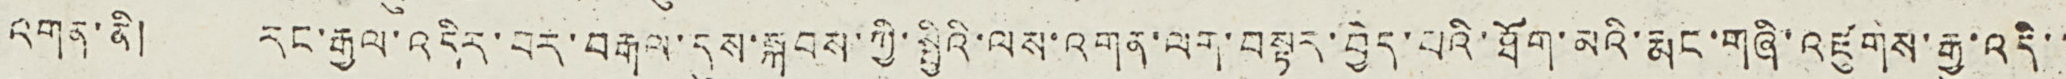འགན་ནི། རང་རྒྱལ་འདིར་བར་བརྒལ་དུས་སྐབས་ཀྱི་སྤྱིའི་ལས་འགན་ལག་བསྟར་བྱེད་པའི་ཐོག་མའི་རྨང་གཞི་འཛུགས་རྒྱུ་འདི་་
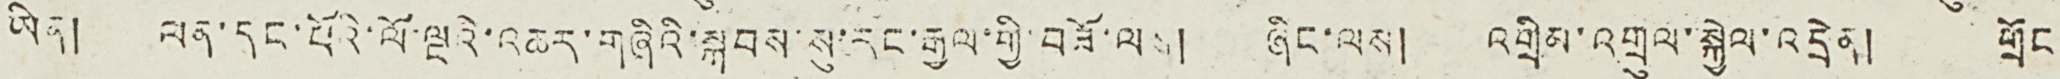ཡིན། ལན་དང་པོའི་ལོ་ལྔའི་འཆར་གཞིའི་སྐབས་སུ་རང་རྒྱལ་གྱི་བཟོ་ལས། ཞིང་ལས། འགྲིམ་འགྲུལ་སྐྱེལ་འདྲེན། གྲོང་
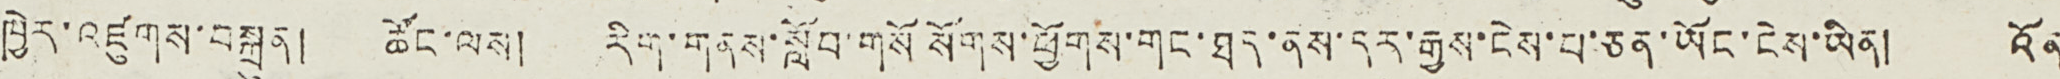ཁྱེར་འཛུགས་བསྐྲུན། ཚོང་ལས། རིག་གནས་སློབ་གསོ སོགས་ཕྱོགས་གང་ཐད་ནས་དར་རྒྱས་ངེས་པ་ཅན་ཡོང་ངེས་ཡིན། འོན
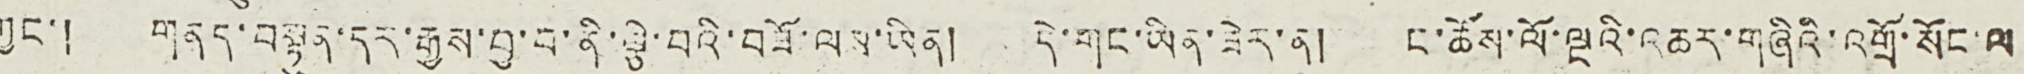ཀྱང་། གནད་བསྟུན་དར་རྒྱས་བྱ་བ་ནི་ལྕེ་བའི་བཟོ་ལས་ཡིན། དེ་གང་ཡིན་ཟེར་ན། ང་ཚོས་ལོ་ལྔའི་འཆར་གཞིའི་འགྲོ་སོང་ལ་
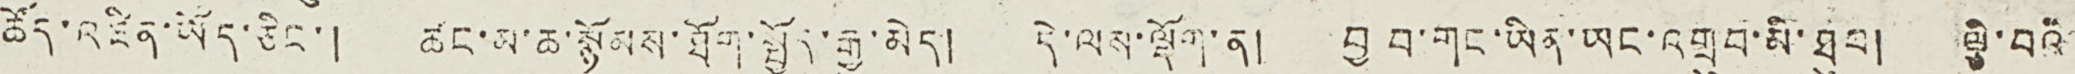ཚོད་འཛིན་ཡོད་ཅིང་། ཚང་མ་ཆ་སྙོམས་ཐོག་སྤྱོད་རྒྱུ་མེད། དེ་ལས་སྡོག་ན། བྱ་བ་གང་ཡིན་ཡང་འགྲུབ་མི་ཐུབ། ལྕི་བའི
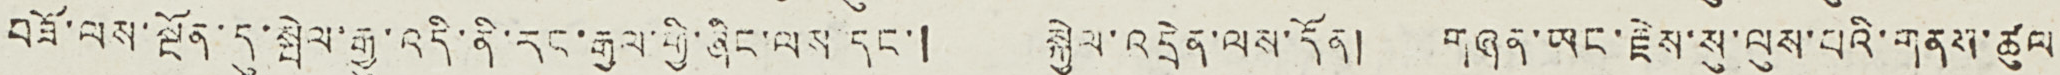བཟོ་ལས་སྔོན་དུ་སྤེལ་རྒྱུ་འདི་ནི་རང་རྒྱལ་གྱི་ཞིང་ལས་དང་། སྐྱེལ་འདྲེན་ལས་དོན། གཞན་ཡང་རྗེས་སུ་ལུས་པའི་གནས་ཚུལ་
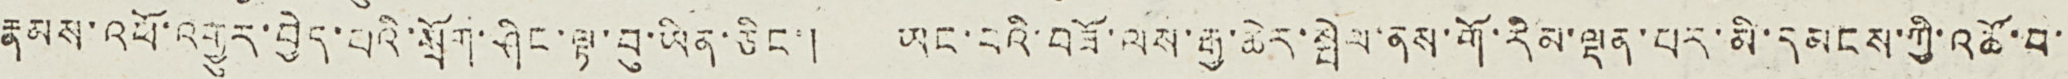རྣམས་འཕོ་འགྱུར་བྱེད་པའི་སྲོག་ཤིང་ལྟ་བུ་ཡིན་ཅིང་། ཡང་བའི་བཟོ་ལས་རྒྱ་ཆེར་སྤེལ་ནས་གོ་རིམ་ལྡན་པར་མི་དམངས་ཀྱི་འཚོ་བ་
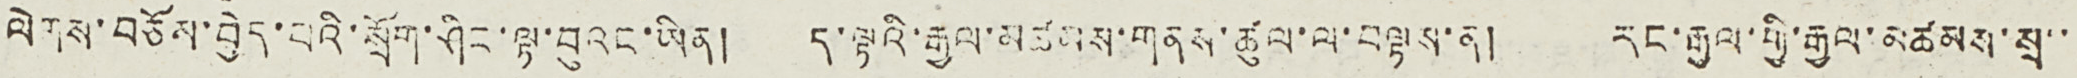ལེགས་བཅོས་བྱེད་པའི་སྲོག་ཤིང་ལྟ་བུའང་ཡིན། ད་ལྟའི་རྒྱལ་མཚམས་གནས་ཚུལ་ལ་བལྟས་ན། རང་རྒྱལ་གྱི་རྒྱལ་མཙམས་སྲ་་
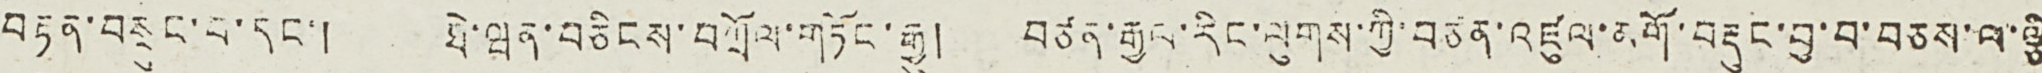བརྟན་བསྲུང་བ་དང་། ཐེ་ཝན་བཅིངས་བཀྲོལ་གཏོང་རྒྱུ། བཙན་རྒྱལ་རིང་ལུགས་ཀྱི་བཙན་འཛུལ་མགོ་བརྡུང་བྱ་བ་བཅས་ལ་ལྕི
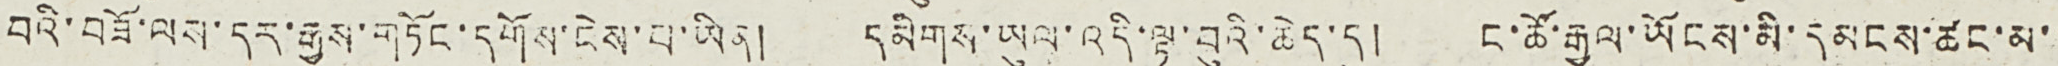བའི་བཟོ་ལས་དར་རྒྱས་གཏོང་དགོས་ངེས་པ་ཡིན། དམིགས་ཡུལ་འདི་ལྟ་བུའི་ཆེད་དུ། ང་ཚོ་རྒྱལ་ཡོངས་མི་དམངས་ཚང་མ་་
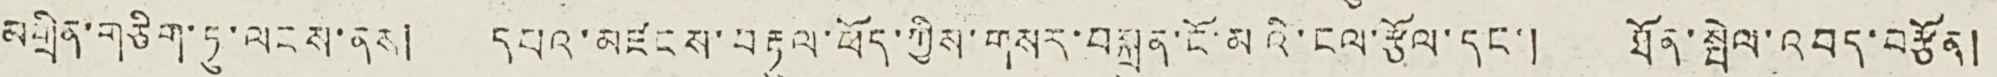མགྲིན་གཅིག་ཏུ་ལངས་ནས། དཔའ་མཛངས་བརྟུལ་ཕོད་ཀྱིས་གསར་བསྐྲུན་ངོ་མའི་ངལ་རྩོལ་དང་། ཐོན་སྤེལ་འབད་བརྩོན།
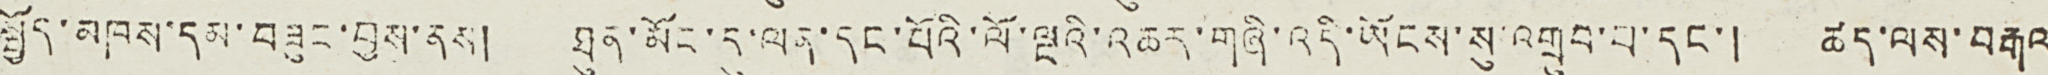སྤྱོད་མཁས་དམ་བཟུང་བྱས་ནས། ཐུན་མོང་དུ་ལན་དང་པོའི་ལོ་ལྔའི་འཆར་གཞི་འདི་ཡོངས་སུ་འགྲུབ་པ་དང་། ཚད་ལས་བརྒལ
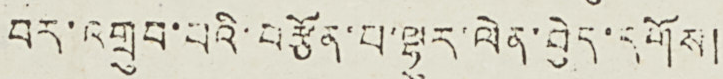བར་འགྲུབ་པའི་བརྩོན་པ་ལྷུར་ལེན་བྱེད་དགོས།
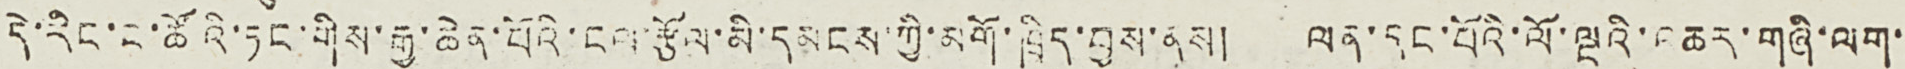དེ་རིང་ང་ཚོའི་ཏང་གིས་རྒྱ་ཆེན་པོའི་ངལ་རྩོལ་མི་དམངས་ཀྱི་མགོ་ཁྲིད་བྱས་ནས། ལན་དང་པོའི་ལོ་ལྔའི་འཆར་གཞི་ལག་་
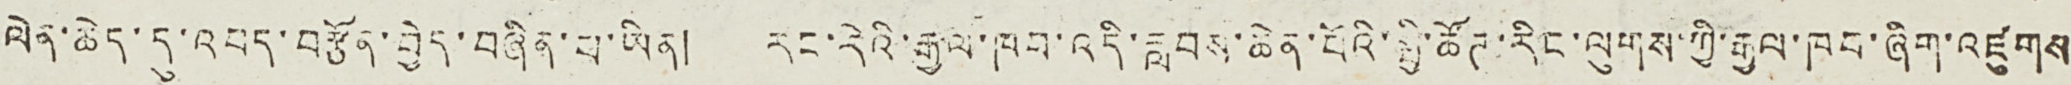ལེན་ཆེད་དུ་འབད་བརྩོན་བྱེད་བཞིན་པ་ཡིན། རང་རེའི་རྒྱལ་ཁབ་འདི་རླབས་ཆེན་པོའི་སྤྱི་ཚོཊ་རིང་ལུགས་ཀྱི་རྒྱལ་ཁབ་ཞིག་འཛུགས
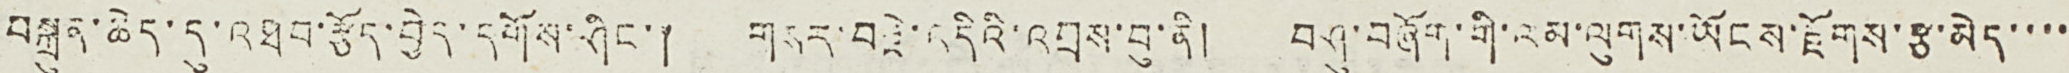བསྐྲུན་ཆེད་དུ་འཐབ་རྩོད་བྱེད་དགོས་ཤིང་། གསར་བརྗེ་འདིའི་འབྲས་བུ་ནི། བཤུ་བཞོག་གི་ལམ་ལུགས་ཡོངས་རྫོགས་རྩ་མེད་་་་
